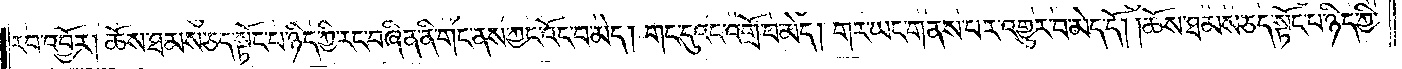རབ་འབྱོར། ཆོས་ཐམས་ཅད་སྟོང་པ་ཉིད་ཀྱི་རང་བཞིན་ནི་གང་ནས་ཀྱང་འོང་བ་མེད། གང་དུའང་འགྲོ་བ་མེད། གར་ཡང་གནས་པར་འགྱུར་བ་མེད་དོ། །ཆོས་ཐམས་ཅད་སྟོང་པ་ཉིད་ཀྱི་
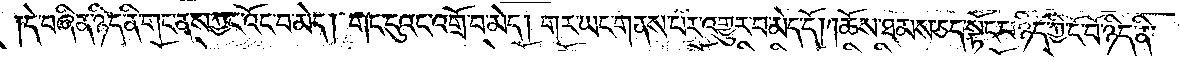དེ་བཞིན་ཉིད་ནི་གང་ནས་ཀྱང་འོང་བ་མེད། གང་དུའང་འགྲོ་བ་མེད། གར་ཡང་གནས་པར་འགྱུར་བ་མེད་དོ། །ཆོས་ཐམས་ཅད་སྟོང་པ་ཉིད་ཀྱི་ངོ་བོ་ཉིད་ནི་
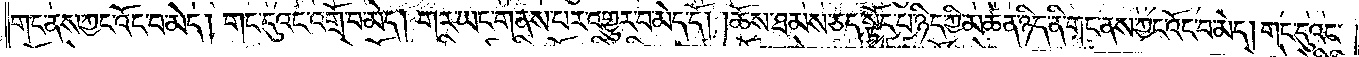གང་ནས་ཀྱང་འོང་བ་མེད། གང་དུའང་འགྲོ་བ་མེད། གར་ཡང་གནས་པར་འགྱུར་བ་མེད་དོ། །ཆོས་ཐམས་ཅད་སྟོང་པ་ཉིད་ཀྱི་མཚན་ཉིད་ནི་གང་ནས་ཀྱང་འོང་བ་མེད། གང་དུའང་
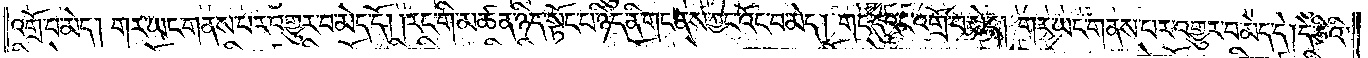འགྲོ་བ་མེད། གར་ཡང་གནས་པར་འགྱུར་བ་མེད་དོ། །རང་གི་མཚན་ཉིད་སྟོང་པ་ཉིད་ནི་གང་ནས་ཀྱང་འོང་བ་མེད། གང་དུའང་འགྲོ་བ་མེད། གར་ཡང་གནས་པར་འགྱུར་བ་མེད་དོ། དེ་ཅིའི་
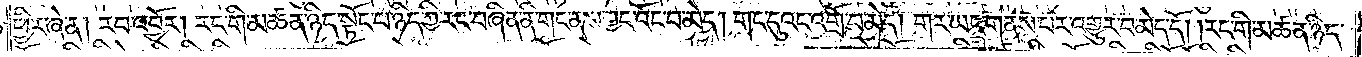ཕྱིར་ཞེ་ན། རབ་འབྱོར། རང་གི་མཚན་ཉིད་སྟོང་པ་ཉིད་ཀྱི་རང་བཞིན་ནི་གང་ནས་ཀྱང་འོང་བ་མེད། གང་དུའང་འགྲོ་བ་མེད། གར་ཡང་གནས་པར་འགྱུར་བ་མེད་དོ། །རང་གི་མཚན་ཉིད་
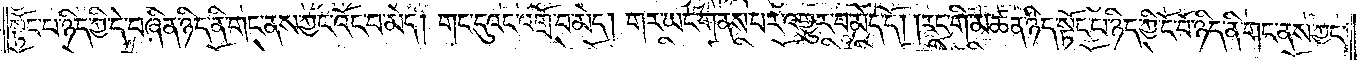སྟོང་པ་ཉིད་ཀྱི་དེ་བཞིན་ཉིད་ནི་གང་ནས་ཀྱང་འོང་བ་མེད། གང་དུའང་འགྲོ་བ་མེད། གར་ཡང་གནས་པར་འགྱུར་བ་མེད་དོ། །རང་གི་མཚན་ཉིད་སྟོང་པ་ཉིད་ཀྱི་ངོ་བོ་ཉིད་ནི་གང་ནས་ཀྱང་
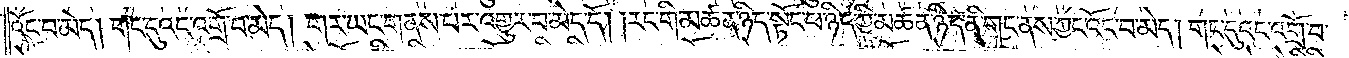འོང་བ་མེད། གང་དུའང་འགྲོ་བ་མེད། གར་ཡང་གནས་པར་འགྱུར་བ་མེད་དོ། །རང་གི་མཚན་ཉིད་སྟོང་པ་ཉིད་ཀྱི་མཚན་ཉིད་ནི་གང་ནས་ཀྱང་འོང་བ་མེད། གང་དུའང་འགྲོ་བ་
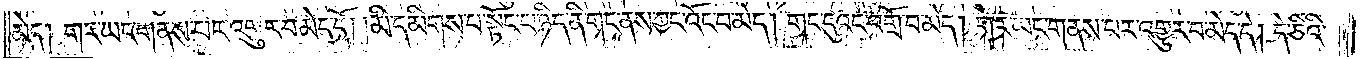མེད། གར་ཡང་གནས་པར་འགྱུར་བ་མེད་དོ། །མི་དམིགས་པ་སྟོང་པ་ཉིད་ནི་གང་ནས་ཀྱང་འོང་བ་མེད། གང་དུའང་འགྲོ་བ་མེད། གར་ཡང་གནས་པར་འགྱུར་བ་མེད་དེ། དེ་ཅིའི་
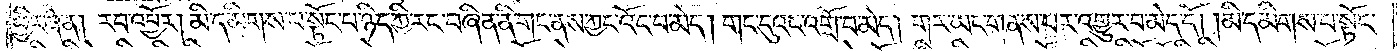ཕྱིར་ཞེ་ན། རབ་འབྱོར། མི་དམིགས་པ་སྟོང་པ་ཉིད་ཀྱི་རང་བཞིན་ནི་གང་ནས་ཀྱང་འོང་བ་མེད། གང་དུའང་འགྲོ་བ་མེད། གར་ཡང་གནས་པར་འགྱུར་བ་མེད་དོ། །མི་དམིགས་པ་སྟོང་
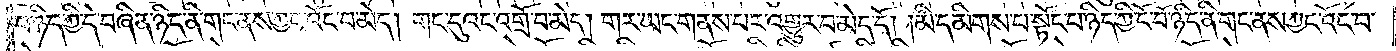པ་ཉིད་ཀྱི་དེ་བཞིན་ཉིད་ནི་གང་ནས་ཀྱང་འོང་བ་མེད། གང་དུའང་འགྲོ་བ་མེད། གར་ཡང་གནས་པར་འགྱུར་བ་མེད་དོ། །མི་དམིགས་པ་སྟོང་པ་ཉིད་ཀྱི་ངོ་བོ་ཉིད་ནི་གང་ནས་ཀྱང་འོང་བ་
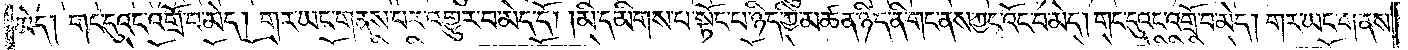མེད། གང་དུའང་འགྲོ་བ་མེད། གར་ཡང་གནས་པར་འགྱུར་བ་མེད་དོ། །མི་དམིགས་པ་སྟོང་པ་ཉིད་ཀྱི་མཚན་ཉིད་ནི་གང་ནས་ཀྱང་འོང་བ་མེད། གང་དུའང་འགྲོ་བ་མེད། གར་ཡང་གནས་
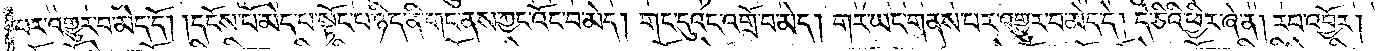པར་འགྱུར་བ་མེད་དོ། །དངོས་པོ་མེད་པ་སྟོང་པ་ཉིད་ནི་གང་ནས་ཀྱང་འོང་བ་མེད། གང་དུའང་འགྲོ་བ་མེད། གར་ཡང་གནས་པར་འགྱུར་བ་མེད་དོ། དེ་ཅིའི་ཕྱིར་ཞེ་ན། རབ་འབྱོར།
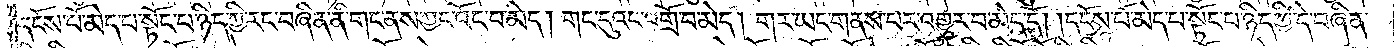དངོས་པོ་མེད་པ་སྟོང་པ་ཉིད་ཀྱི་རང་བཞིན་ནི་གང་ནས་ཀྱང་འོང་བ་མེད། གང་དུའང་འགྲོ་བ་མེད། གར་ཡང་གནས་པར་འགྱུར་བ་མེད་དོ། །དངོས་པོ་མེད་པ་སྟོང་པ་ཉིད་ཀྱི་དེ་བཞིན་
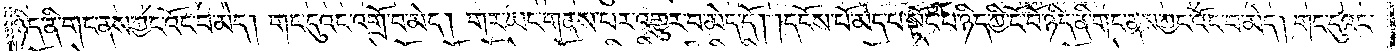ཉིད་ནི་གང་ནས་ཀྱང་འོང་བ་མེད། གང་དུའང་འགྲོ་བ་མེད། གར་ཡང་གནས་པར་འགྱུར་བ་མེད་དོ། །དངོས་པོ་མེད་པ་སྟོང་པ་ཉིད་ཀྱི་ངོ་བོ་ཉིད་ནི་གང་ནས་ཀྱང་འོང་བ་མེད། གང་དུའང་
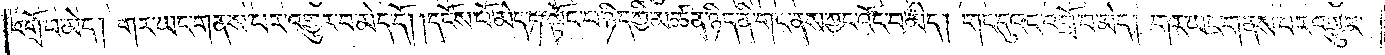འགྲོ་བ་མེད། གར་ཡང་གནས་པར་འགྱུར་བ་མེད་དོ། །དངོས་པོ་མེད་པ་སྟོང་པ་ཉིད་ཀྱི་མཚན་ཉིད་ནི་གང་ནས་ཀྱང་འོང་བ་མེད། གང་དུའང་འགྲོ་བ་མེད། གར་ཡང་གནས་པར་འགྱུར་
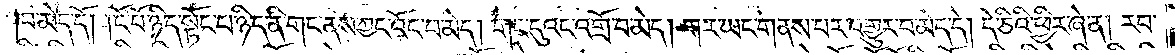བ་མེད་དོ། །ངོ་བོ་ཉིད་སྟོང་པ་ཉིད་ནི་གང་ནས་ཀྱང་འོང་བ་མེད། གང་དུའང་འགྲོ་བ་མེད། གར་ཡང་གནས་པར་འགྱུར་བ་མེད་དོ། དེ་ཅིའི་ཕྱིར་ཞེ་ན། རབ་
